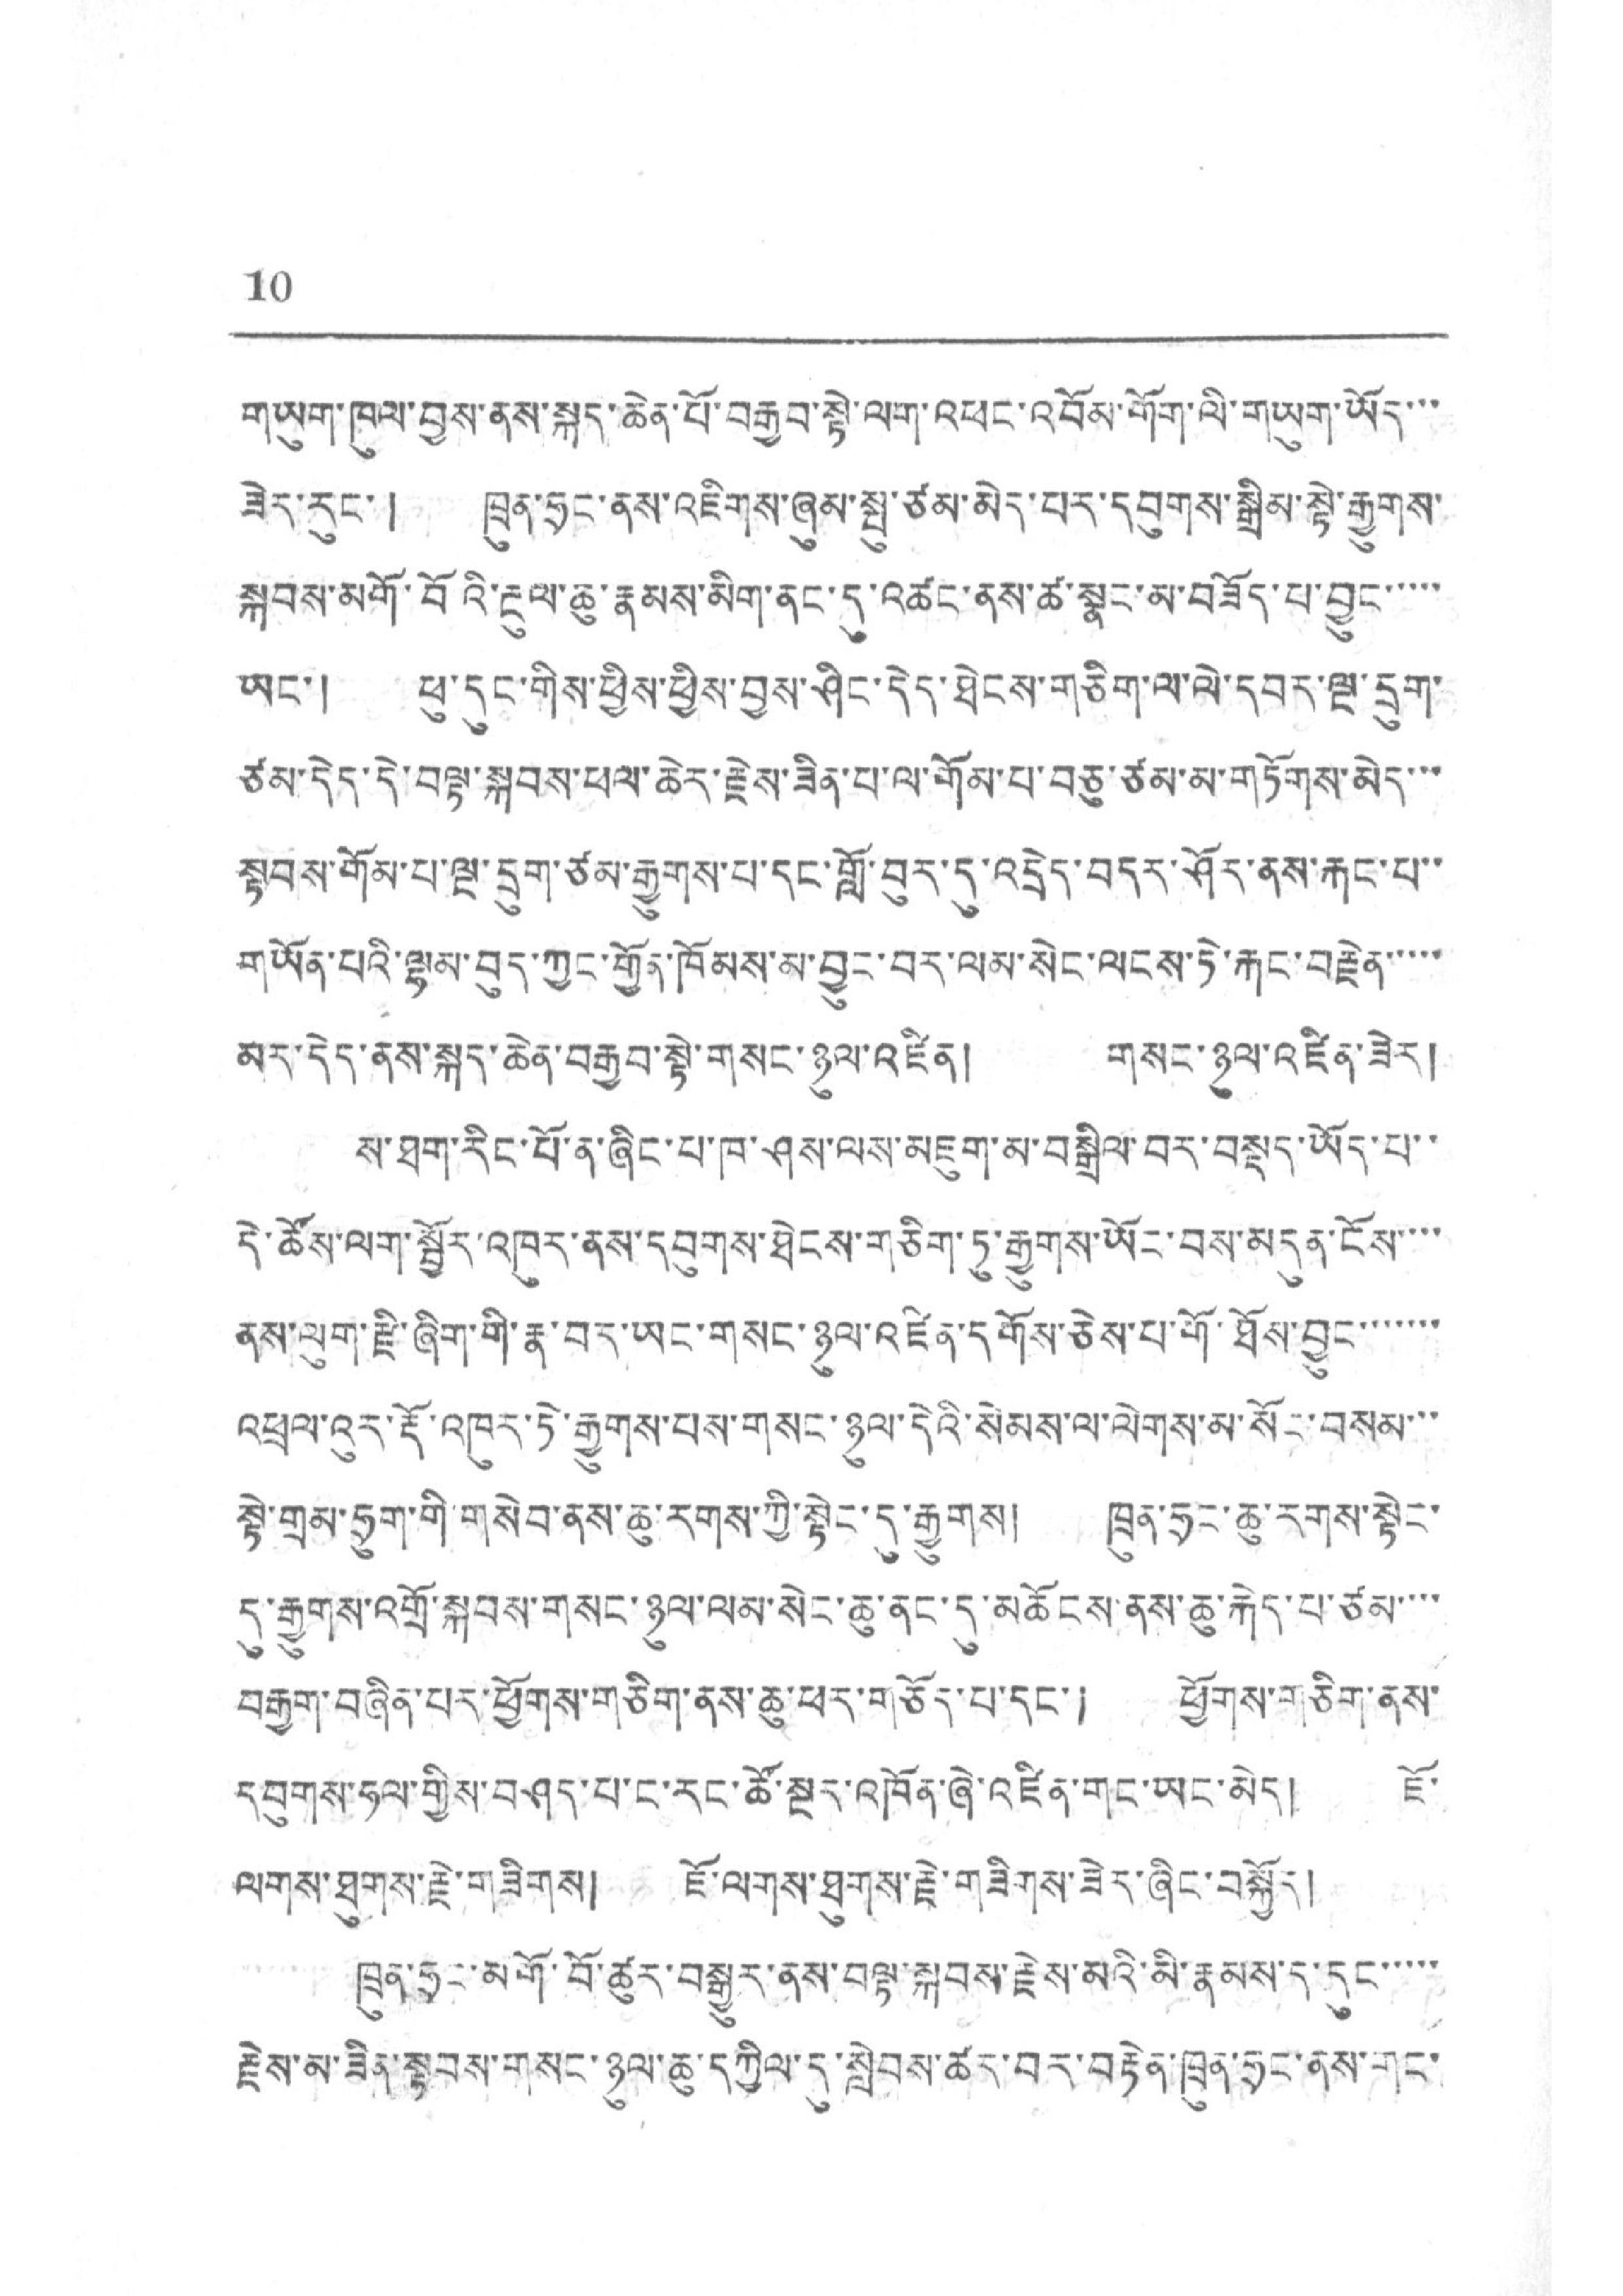10
གཡུག་ཁུལ་བྱས་ནས་སྐད་ཆེན་པོ་བརྒྱབ་སྟེ་ལག་འཕང་འབོམ་གོག་ལི་གཡུག་ཡོད་་་
ཟེར་རུང་། ཁྲུན་ཧྲང་ནས་འཇིགས་ཞུམ་སྤུ་ཙམ་མེད་པར་དབུགས་སྒྲིམ་སྟེ་རྒྱུགས་
སྐབས་མགོ་བོའི་རྔུལ་ཆུ་རྣམས་མིག་ནང་དུ་འཚང་ནས་ཚ་སྣང་མ་བཟོད་པ་བྱུང་་་་་
ཡང་། ཕུ་དུང་གིས་ཕྱིས་ཕྱིས་བྱས་ཤིང་དེད་ཐེངས་གཅིག་ལ་ལེ་དབར་ལྔ་དྲུག་
ཙམ་དེད་དེ་བལྟ་སྐབས་ཕལ་ཆེར་རྗེས་ཟིན་པ་ལ་གོམ་པ་བཅུ་ཙམ་མ་གཏོགས་མེད་་་
སྟབས་གོམ་པ་ལྔ་དྲུག་ཙམ་རྒྱུགས་པ་དང་གློ་བུར་དུ་འདྲེད་བདར་ཤོར་ནས་རྐང་པ་་
གཡོན་པའི་ལྷམ་བུད་ཀྱང་གྱོན་ཁོམས་མ་བྱུང་བར་ལམ་སེང་ལངས་ཏེ་རྐང་བརྗེན་་་་་
མར་དེད་ནས་སྐད་ཆེན་བརྒྱབ་སྟེ་གསང་ཉུལ་འཛིན། གསང་ཉུལ་འཛིན་ཟེར།
ས་ཐག་རིང་པོ་ན་ཞིང་པ་ཁ་ཤས་ལས་མཇུག་མ་བསྒྲིལ་བར་བསྡད་ཡོད་པ་་
དེ་ཚོས་ལག་སྦྱོར་འཁུར་ནས་དབུགས་ཐེངས་གཅིག་ཏུ་རྒྱུགས་ཡོང་བྱས་མདུན་ངོས་་་་
ནས་ལུག་རྫི་ཞིག་གི་རྣ་བར་ཡང་གསང་ཉུལ་འཛིན་དགོས་ཅེས་པ་གོ་ཐོས་བྱུང་་་་་་་
འཕྲལ་འུར་རྡོ་འཁུད་ཏེ་རྒྱུགས་པས་གསང་ཉུལ་དེའི་སེམས་ལ་ལེགས་མ་སོང་བསམ་་་
སྟེ་གྲམ་ཧྲུག་གི་གསེབ་ནས་ཆུ་རགས་ཀྱི་སྟེང་དུ་རྒྱུགས། ཁྲུན་ཧྲང་ཆུ་རགས་སྟེང་
དུ་རྒྱུགས་འགྲོ་སྐབས་གསང་ཉུལ་ལམ་སེང་ཆུ་ནང་དུ་མཆོངས་ནས་ཆུ་རྐེད་པ་ཙམ་་་་
བརྒྱག་བཞིན་པར་ཕྱོགས་གཅིག་ནས་ཆུ་ཕར་གཅོད་པ་དང་། ཕྱོགས་གཅིག་ནས་
དབུགས་ཧལ་གྱིས་བཤད་པ་ང་རང་ཚོ་སྔར་འཁོན་ཞེ་འཛིན་གང་ཡང་མེད། ཇོ་
ལགས་ཐུགས་རྗེ་གཟིགས། ཇོ་ལགས་ཐུགས་རྗེ་གཟིགས་ཟེར་ཞིང་བསྐྱོར།
ཁྲུན་ཧྲང་མགོ་བོ་ཚུར་བསྒྱུར་ནས་བལྟ་སྐབས་རྗེས་མའི་མི་རྣམས་དུ་དང་་་་་
རྗེས་མ་ཟེན་སྟབས་གསང་ཉུལ་ཆུ་དཀྱིལ་དུ་སླེབས་ཚར་བར་བརྟེན་ཁྲུན་ཧྲང་ནས་གང་
